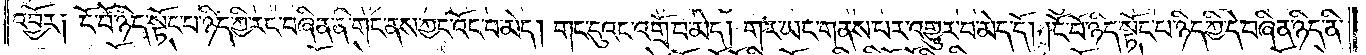འབྱོར། ངོ་བོ་ཉིད་སྟོང་པ་ཉིད་ཀྱི་རང་བཞིན་ནི་གང་ནས་ཀྱང་འོང་བ་མེད། གང་དུའང་འགྲོ་བ་མེད། གར་ཡང་གནས་པར་འགྱུར་བ་མེད་དོ། །ངོ་བོ་ཉིད་སྟོང་པ་ཉིད་ཀྱི་དེ་བཞིན་ཉིད་ནི་
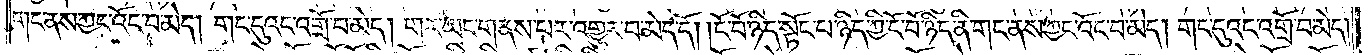གང་ནས་ཀྱང་འོང་བ་མེད། གང་དུའང་འགྲོ་བ་མེད། གར་ཡང་གནས་པར་འགྱུར་བ་མེད་དོ། །ངོ་བོ་ཉིད་སྟོང་པ་ཉིད་ཀྱི་ངོ་བོ་ཉིད་ནི་གང་ནས་ཀྱང་འོང་བ་མེད། གང་དུའང་འགྲོ་བ་མེད།
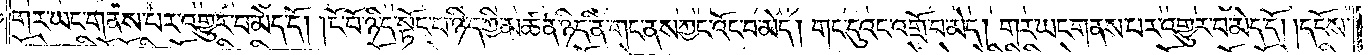གར་ཡང་གནས་པར་འགྱུར་བ་མེད་དོ། །ངོ་བོ་ཉིད་སྟོང་པ་ཉིད་ཀྱི་མཚན་ཉིད་ནི་གང་ནས་ཀྱང་འོང་བ་མེད། གང་དུའང་འགྲོ་བ་མེད། གར་ཡང་གནས་པར་འགྱུར་བ་མེད་དོ། །དངོས་
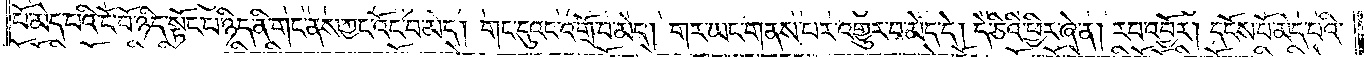པོ་མེད་པའི་ངོ་བོ་ཉིད་སྟོང་པ་ཉིད་ནི་གང་ནས་ཀྱང་འོང་བ་མེད། གང་དུའང་འགྲོ་བ་མེད། གར་ཡང་གནས་པར་འགྱུར་བ་མེད་དོ། དེ་ཅིའི་ཕྱིར་ཞེ་ན། རབ་འབྱོར། དངོས་པོ་མེད་པའི་
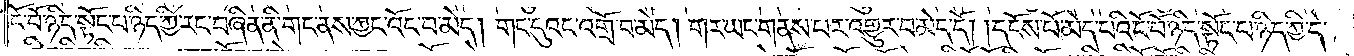ངོ་བོ་ཉིད་སྟོང་པ་ཉིད་ཀྱི་རང་བཞིན་ནི་གང་ནས་ཀྱང་འོང་བ་མེད། གང་དུའང་འགྲོ་བ་མེད། གར་ཡང་གནས་པར་འགྱུར་བ་མེད་དེ། དངོས་པོ་མེད་པའི་ངོ་བོ་ཉིད་སྟོང་པ་ཉིད་ཀྱི་དེ་
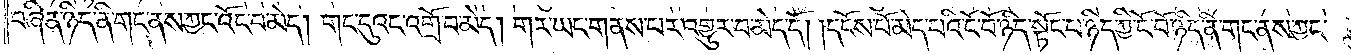བཞིན་ཉིད་ནི་གང་ནས་ཀྱང་འོང་བ་མེད། གང་དུའང་འགྲོ་བ་མེད། གར་ཡང་གནས་པར་འགྱུར་བ་མེད་དོ། །དངོས་པོ་མེད་པའི་ངོ་བོ་ཉིད་སྟོང་པ་ཉིད་ཀྱི་ངོ་བོ་ཉིད་ནི་གང་ནས་ཀྱང་
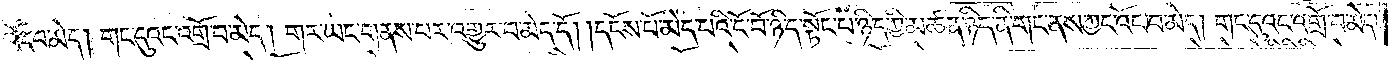འོང་བ་མེད། གང་དུའང་འགྲོ་བ་མེད། གར་ཡང་གནས་པར་འགྱུར་བ་མེད་དོ། །དངོས་པོ་མེད་པའི་ངོ་བོ་ཉིད་སྟོང་པ་ཉིད་ཀྱི་མཚན་ཉིད་ནི་གང་ནས་ཀྱང་འོང་བ་མེད། གང་དུའང་འགྲོ་བ་མེད།
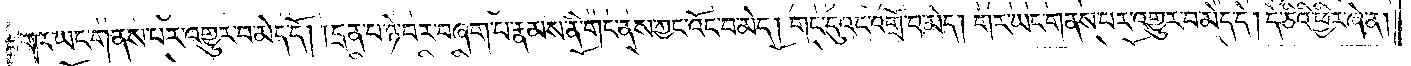གར་ཡང་གནས་པར་འགྱུར་བ་མེད་དོ། །དྲན་པ་ཉེ་བར་བཞག་པ་རྣམས་ནི་གང་ནས་ཀྱང་འོང་བ་མེད། གང་དུའང་འགྲོ་བ་མེད། གར་ཡང་གནས་པར་འགྱུར་བ་མེད་དོ། དེ་ཅིའི་ཕྱིར་ཞེ་ན།
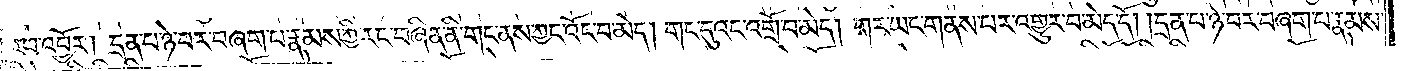རབ་འབྱོར། དྲན་པ་ཉེ་བར་བཞག་པ་རྣམས་ཀྱི་རང་བཞིན་ནི་གང་ནས་ཀྱང་འོང་བ་མེད། གང་དུའང་འགྲོ་བ་མེད། གར་ཡང་གནས་པར་འགྱུར་བ་མེད་དོ། །དྲན་པ་ཉེ་བར་བཞག་པ་རྣམས་
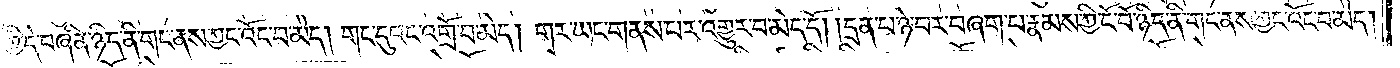ཀྱི་དེ་བཞིན་ཉིད་ནི་གང་ནས་ཀྱང་འོང་བ་མེད། གང་དུའང་འགྲོ་བ་མེད། གར་ཡང་གནས་པར་འགྱུར་བ་མེད་དོ། །དྲན་པ་ཉེ་བར་བཞག་པ་རྣམས་ཀྱི་ངོ་བོ་ཉིད་ནི་གང་ནས་ཀྱང་འོང་བ་མེད།
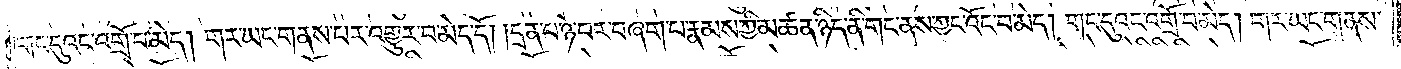གང་དུའང་འགྲོ་བ་མེད། གར་ཡང་གནས་པར་འགྱུར་བ་མེད་དོ། །དྲན་པ་ཉེ་བར་བཞག་པ་རྣམས་ཀྱི་མཚན་ཉིད་ནི་གང་ནས་ཀྱང་འོང་བ་མེད། གང་དུའང་འགྲོ་བ་མེད། གར་ཡང་གནས་
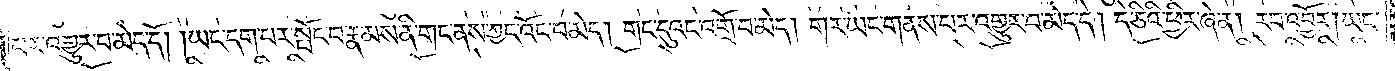པར་འགྱུར་བ་མེད་དོ། །ཡང་དག་པར་སྤོང་བ་རྣམས་ནི་གང་ནས་ཀྱང་འོང་བ་མེད། གང་དུའང་འགྲོ་བ་མེད། གར་ཡང་གནས་པར་འགྱུར་བ་མེད་དེ། དེ་ཅིའི་ཕྱིར་ཞེ་ན། རབ་འབྱོར། ཡང་
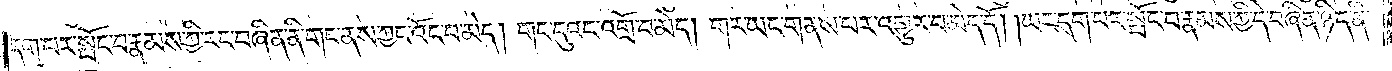དག་པར་སྤོང་བ་རྣམས་ཀྱི་རང་བཞིན་ནི་གང་ནས་ཀྱང་འོང་བ་མེད། གང་དུའང་འགྲོ་བ་མེད། གང་ཡང་གནས་པར་འགྱུར་བ་མེད་དོ། །ཡང་དག་པར་སྤོང་བ་རྣམས་ཀྱི་དེ་བཞིན་ཉིད་ནི་
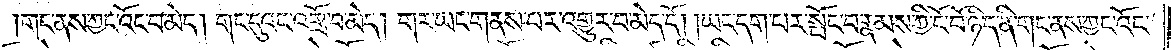གང་ནས་ཀྱང་འོང་བ་མེད། གང་དུའང་འགྲོ་བ་མེད། གར་ཡང་གནས་པར་འགྱུར་བ་མེད་དོ། །ཡང་དག་པར་སྤོང་བ་རྣམས་ཀྱི་ངོ་བོ་ཉིད་ནི་གང་ནས་ཀྱང་འོང་
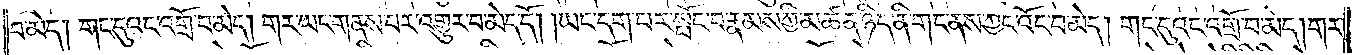བ་མེད། གང་དུའང་འགྲོ་བ་མེད། གར་ཡང་གནས་པར་འགྱུར་བ་མེད་དོ། །ཡང་དག་པར་སྤོང་བ་རྣམས་ཀྱི་མཚན་ཉིད་ནི་གང་ནས་ཀྱང་འོང་བ་མེད། གང་དུའང་འགྲོ་བ་མེད། གར་
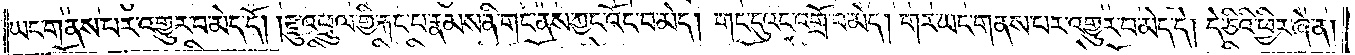ཡང་གནས་པར་འགྱུར་བ་མེད་དོ། །རྫུ་འཕྲུལ་གྱི་རྐང་པ་རྣམས་ནི་གང་ནས་ཀྱང་འོང་བ་མེད། གང་དུའང་འགྲོ་བ་མེད། གར་ཡང་གནས་པར་འགྱུར་བ་མེད་དེ། དེ་ཅིའི་ཕྱིར་ཞེ་ན།
